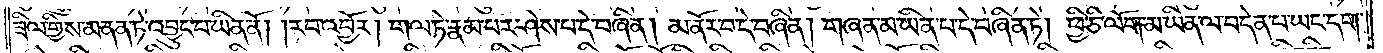ཟིལ་གྱིས་མནན་ཏེ་འབྱུང་བ་ཡིན་ནོ། །རབ་འབྱོར། གལ་ཏེ་རྣམ་པར་ཤེས་པ་དེ་བཞིན། མ་ནོར་བ་དེ་བཞིན། གཞན་མ་ཡིན་པ་དེ་བཞིན་ཏེ། ཕྱིན་ཅི་ལོག་མ་ཡིན་ལ་བདེན་པ་ཡང་དག་
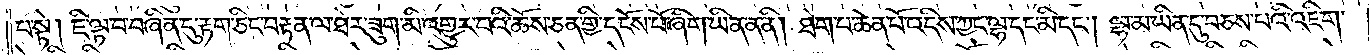པ་སྟེ། ཇི་ལྟ་བ་བཞིན་དུ་རྟག་ཅིང་བརྟན་ལ་ཐེར་ཟུག་མི་འགྱུར་བའི་ཆོས་ཅན་གྱི་དངོས་པོ་ཞིག་ཡིན་ན་ནི། ཐེག་པ་ཆེན་པོ་འདིས་ཀྱང་ལྷ་དང་མི་དང༌། ལྷ་མ་ཡིན་དུ་བཅས་པའི་འཇིག་
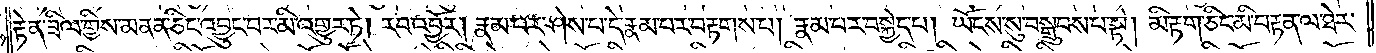རྟེན་ཟིལ་གྱིས་མནན་ཅིང་འབྱུང་བར་མི་འགྱུར་ཏེ། རབ་འབྱོར། རྣམ་པར་ཤེས་པ་དེ་རྣམ་པར་བརྟགས་པ། རྣམ་པར་བསྐྱེད་པ། ཡོངས་སུ་བསྒྲུབས་པ་སྟེ། མི་རྟག་ཅིང་མི་བརྟན་ལ་ཐེར་
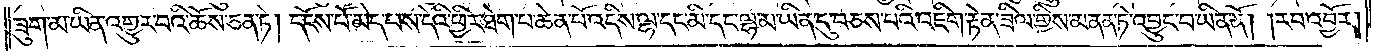ཟུག་མ་ཡིན་འགྱུར་བའི་ཆོས་ཅན་ཏེ། དངོས་པོ་མེད་པས་དེའི་ཕྱིར་ཐེག་པ་ཆེན་པོ་འདིས་ལྷ་དང་མི་དང་ལྷ་མ་ཡིན་དུ་བཅས་པའི་འཇིག་རྟེན་ཟིལ་གྱིས་མནན་ཏེ་འབྱུང་བ་ཡིན་ནོ། །རབ་འབྱོར།
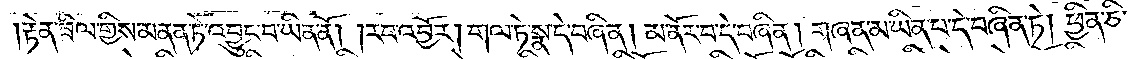རྟེན་ཟིལ་གྱིས་མནན་ཏེ་འབྱུང་བ་ཡིན་ནོ། །རབ་འབྱོར། གལ་ཏེ་སྣ་དེ་བཞིན། མ་ནོར་བ་དེ་བཞིན་གཞན་མ་ཡིན་པ་དེ་བཞིན་ཏེ། ཕྱིན་ཅི་
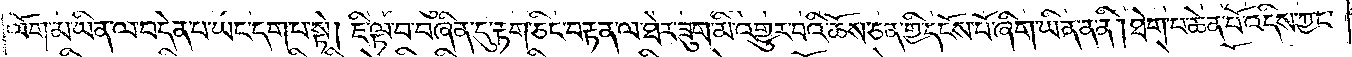ལོག་མ་ཡིན་ལ་བདེན་པ་ཡང་དག་པ་སྟེ། ཇི་ལྟ་བ་བཞིན་དུ་རྟག་ཅིང་བརྟན་ལ་ཐེར་ཟུག་མི་འགྱུར་བའི་ཆོས་ཅན་གྱི་དངོས་པོ་ཞིག་ཡིན་ན་ནི། ཐེག་པ་ཆེན་པོ་འདིས་ཀྱང་
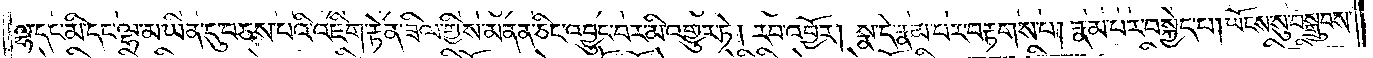ལྷ་དང་མི་དང་ལྷ་མ་ཡིན་དུ་བཅས་པའི་འཇིག་རྟེན་ཟིལ་གྱིས་མནན་ཅིང་འབྱུང་བར་མི་འགྱུར་ཏེ། རབ་འབྱོར། སྣ་དེ་རྣམ་པར་བརྟགས་པ། རྣམ་པར་བསྐྱེད་པ། ཡོངས་སུ་བསྒྲུབས་
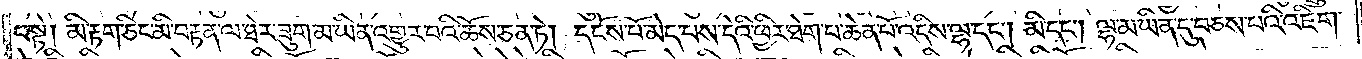པ་སྟེ། མི་རྟག་ཅིང་མི་བརྟན་ལ་ཐེར་ཟུག་མ་ཡིན་འགྱུར་བའི་ཆོས་ཅན་ཏེ། དངོས་པོ་མེད་པས་དེའི་ཕྱིར་ཐེག་པ་ཆེན་པོ་འདིས་ལྷ་དང༌། མི་དང༌། ལྷ་མ་ཡིན་དུ་བཅས་པའི་འཇིག་
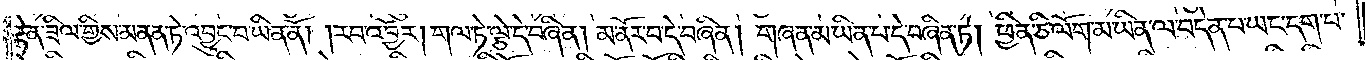རྟེན་ཟིལ་གྱིས་མནན་ཏེ་འབྱུང་བ་ཡིན་ནོ། །རབ་འབྱོར། གལ་ཏེ་ལྕེ་དེ་བཞིན། མ་ནོར་བ་དེ་བཞིན། གཞན་མ་ཡིན་པ་དེ་བཞིན་ཏེ། ཕྱིན་ཅི་ལོག་མ་ཡིན་ལ་བདེན་པ་ཡང་དག་པ་
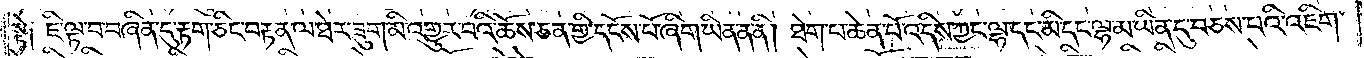སྟེ། ཇི་ལྟ་བ་བཞིན་དུ་རྟག་ཅིང་བརྟན་ལ་ཐེར་ཟུག་མི་འགྱུར་བའི་ཆོས་ཅན་གྱི་དངོས་པོ་ཞིག་ཡིན་ན་ནི། ཐེག་པ་ཆེན་པོ་འདིས་ཀྱང་ལྷ་དང་མི་དང་ལྷ་མ་ཡིན་དུ་བཅས་པའི་འཇིག་
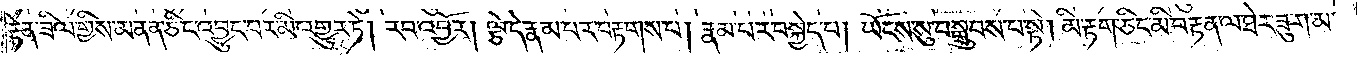རྟེན་ཟིལ་གྱིས་མནན་ཅིང་འབྱུང་བར་མི་འགྱུར་ཏེ། རབ་འབྱོར། ལྕེ་དེ་རྣམ་པར་བརྟགས་པ། རྣམ་པར་བསྐྱེད་པ། ཡོངས་སུ་བསྒྲུབས་པ་སྟེ། མི་རྟག་ཅིང་མི་བརྟན་ལ་ཐེར་ཟུག་མ་
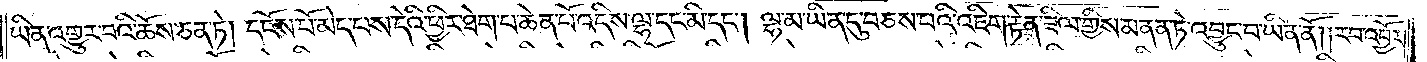ཡིན་འགྱུར་བའི་ཆོས་ཅན་ཏེ། དངོས་པོ་མེད་པས་དེའི་ཕྱིར་ཐེག་པ་ཆེན་པོ་འདིས་ལྷ་དང་མི་དང༌། ལྷ་མ་ཡིན་དུ་བཅས་པའི་འཇིག་རྟེན་ཟིལ་གྱིས་མནན་ཏེ་འབྱུང་བ་ཡིན་ནོ། །རབ་འབྱོར།
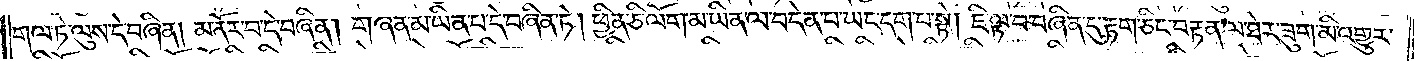གལ་ཏེ་ལུས་དེ་བཞིན། མ་ནོར་བ་དེ་བཞིན། གཞན་མ་ཡིན་པ་དེ་བཞིན་ཏེ། ཕྱིན་ཅི་ལོག་མ་ཡིན་ལ་བདེན་པ་ཡང་དག་པ་སྟེ། ཇི་ལྟ་བ་བཞིན་དུ་རྟག་ཅིང་བརྟན་ལ་ཐེར་ཟུག་མི་འགྱུར་
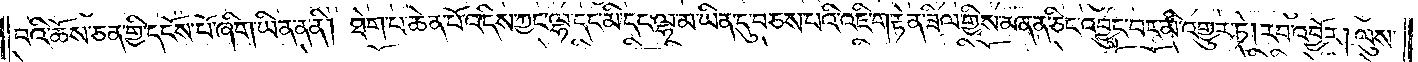བའི་ཆོས་ཅན་གྱི་དངོས་པོ་ཞིག་ཡིན་ན་ནི། ཐེག་པ་ཆེན་པོ་འདིས་ཀྱང་ལྷ་དང་མི་དང་ལྷ་མ་ཡིན་དུ་བཅས་པའི་འཇིག་རྟེན་ཟིལ་གྱིས་མནན་ཅིང་འབྱུང་བར་མི་འགྱུར་ཏེ། རབ་འབྱོར། ལུས་
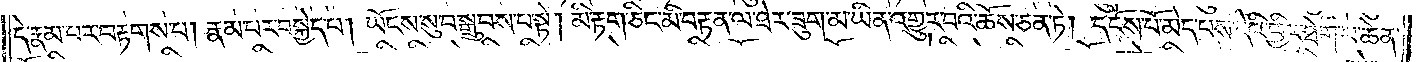དེ་རྣམ་བར་བརྟགས་པ། རྣམ་པར་བསྐྱེད་པ། ཡོངས་སུ་བསྒྲུབས་པ་སྟེ། མི་རྟག་ཅིང་མི་བརྟན་ལ་ཐེར་ཟུག་མ་ཡིན་འགྱུར་བའི་ཆོས་ཅན་ཏེ། དངོས་པོ་མེད་པས་དེའི་ཕྱིར་ཐེག་པ་ཆེན་
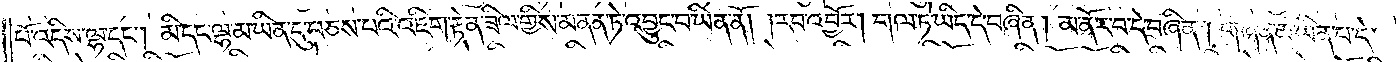པོ་འདིས་ལྷ་དང༌། མི་དང་ལྷ་མ་ཡིན་དུ་བཅས་པའི་འཇིག་རྟེན་ཟིལ་གྱིས་མནན་ཏེ་འབྱུང་བ་ཡིན་ནོ། །རབ་འབྱོར། གལ་ཏེ་ཡིད་དེ་བཞིན། མ་ནོར་བ་དེ་བཞིན། གཞན་མ་ཡིན་པ་དེ་
